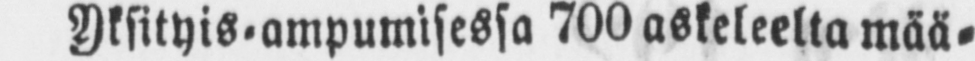Yksityis-ampumisessa 700 askeleelta mää-
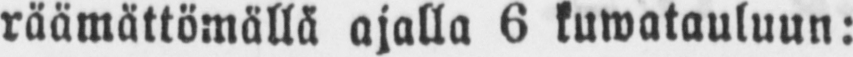räämättömällä ajalla 6 kuwatauluun:
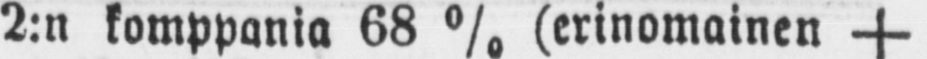2:n komppania 68 % (erinomainen +
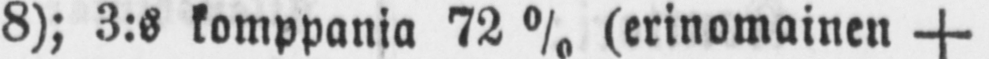8); 3:s komppania 72 % (erinomainen +
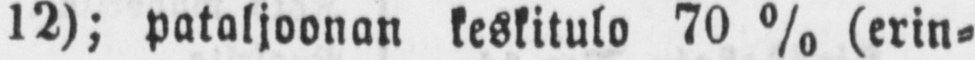12); pataljoonan keskitulo 70 % (erin-
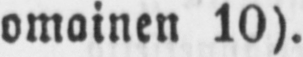omainen 10).
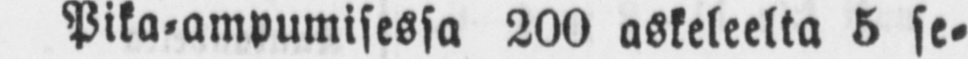Pika-ampumisessa 200 askeleelta 5 se-
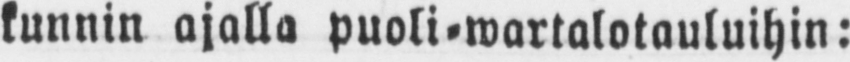kunnin ajalla puoli-wartalotauluihin:
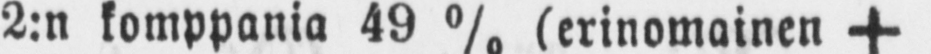2:n komppania 49 % (erinomainen +
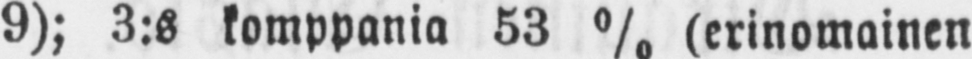9); 3:s komppania 53 % (erinomainen
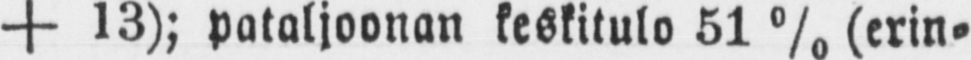+ 13); pataljoonan keskitulo 51 % (erin-
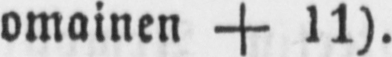omainen + 11).
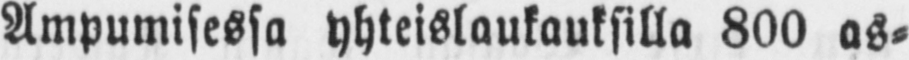Ampumisessa yhteislaukauksilla 800 as-
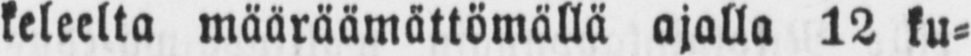keleelta määräämättömällä ajalla 12 ku-
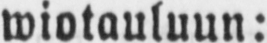wiotauluun:
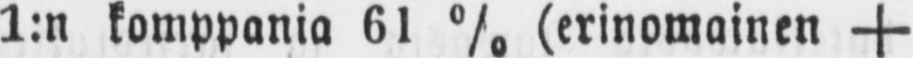1:n komppania 61 % (erinomainen +
